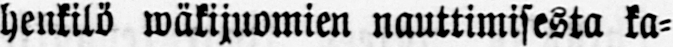henkilö wäkijuomien nauttimisesta ka-
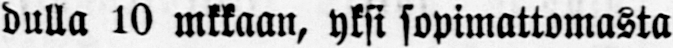dulla 10 mkkaan, yksi sopimattomasta
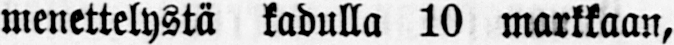menettelystä kadulla 10 markkaan,
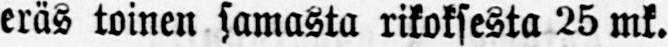eräs toinen samasta rikoksesta 25 mk.
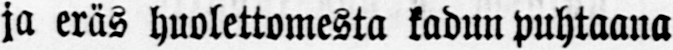ja eräs huolettomesta kadun puhtaana
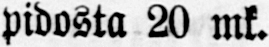pidosta 20 mk.
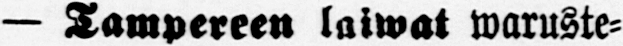— Tampereen laiwat waruste-
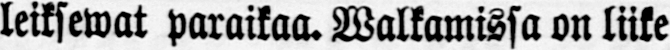leiksewat paraikaa. Walkamissa on liike
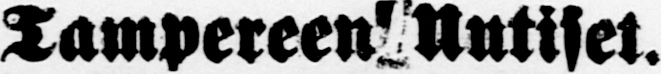Tampereen Uutiset.
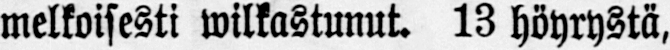melkoisesti wilkastunut. 13 höyrystä,
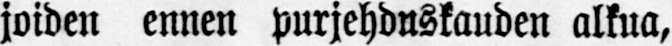joiden ennen purjehduskauden alkua,
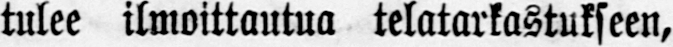tulee ilmoittautua telatarkastukseen,
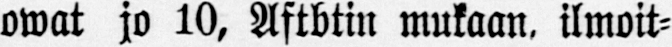owat jo 10, Aftbtin mukaan, ilmoit-
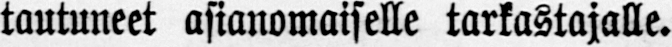tautuneet asianomaiselle tarkastajalle.
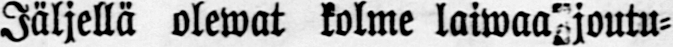Jäljellä olewat kolme laiwaa joutu-
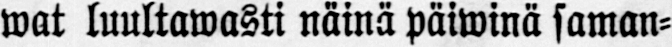wat luultawasti näinä päiwinä saman-
